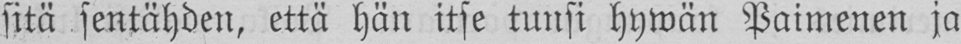sitä sentähden, että hän itse tunsi hywän Paimenen ja
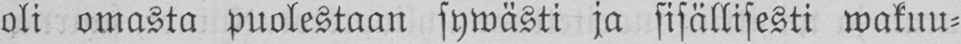oli omasta puolestaan sywästi ja sisällisesti wakuu-
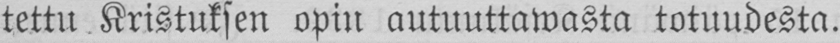tettu Kristuksen opin autuuttawasta totuudesta.
